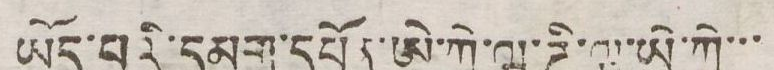ཡོད་པའི་དམག་དཔོན་ཨེ་ཀྲེ་ཝ་ཌི་ཝ་ཡེ་ཀྲེ་་་
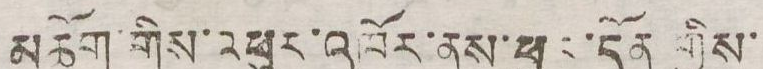མཆོག་གིས་འཕུར་འཁོར་ནས་ཕྱར་དོན་གྱིས་
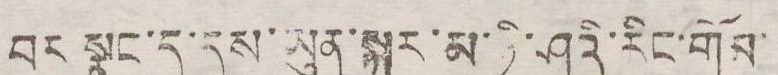བར སྣང་དུ་དུས་ཡུན་སྐར་མ་ཉི་ཤུའི་རིང་གོམ་
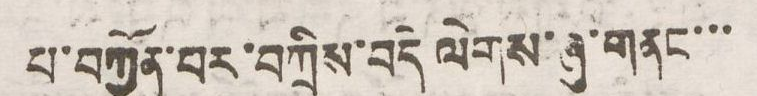པ་བཀྱོན་པར་བཀྲིས་བདེ་ ལེགས་ཞུ་གནང་་་
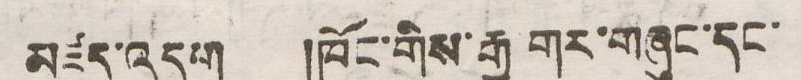མཛད་འདུག །ཁོང་གིས་རྒྱ གར་གཞུང་དང་
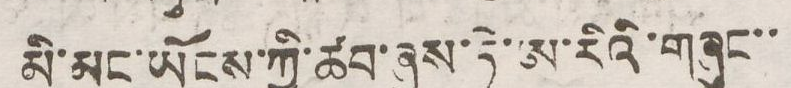མི་མང་ཡོངས་ཀྱི་ཚབ་ཞུས་ཏེ་ཨ་རིའི་གཞུང་་
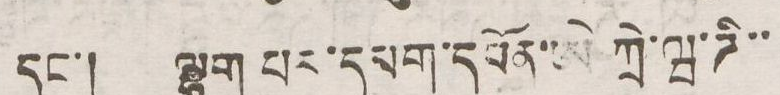དང་། ལྷག པར་དམག་དཔོན་ཨེ ཀྲེ་ཝ་ཌི་་
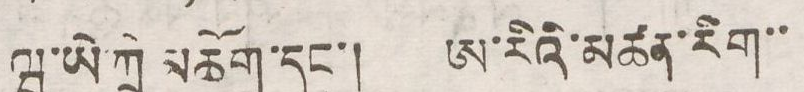ཝ་ཡེ་ཀྲེ མཆོག་དང་། ཨ་རིའི་མཚན་རིག་་
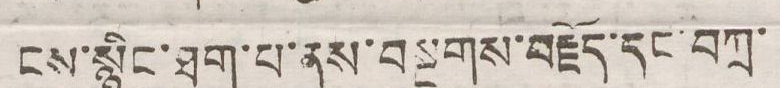ངས་སྙིང་ཐག་པ་ནས་བསྔགས་བརྗོད་དང་བཀྲ་
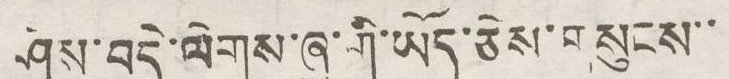ཤིས་བདེ་ལེགས་ཞུ་གི་ཡོད་ཅེས་གསུངས་་
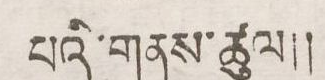པའི་གནས་ཚུལ།།
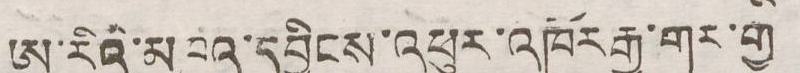ཨ་རིའི་མཁའ་དབྱིངས་འཕུར་འཁོར་རྒྱ་གར་གྱི
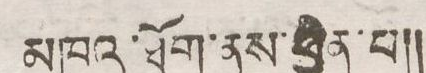མཁའ་ཐོག་ནས་ཕྱིན་པ།།
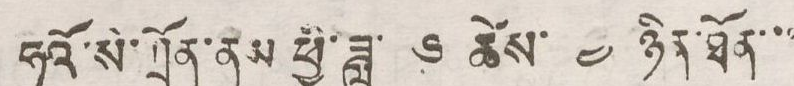ཧའོ་སེ་ཀྲོན་ནས ཕྱི་ཟླ་ ༦ ཚེས་ ༤ ཉིན་ཐོན་་་
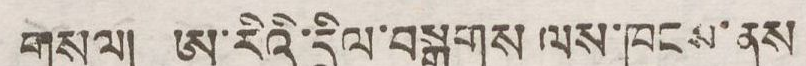གསལ། ཨ་རིའི་དྲིལ་བསྒྲགས ལས་ཁུངས་ནས
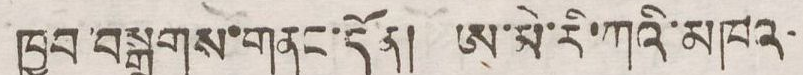ཁྱབ་བསྒྲགས་གནང་དོན། ཨ་མེ་རི་ཀའི་མཁའ
